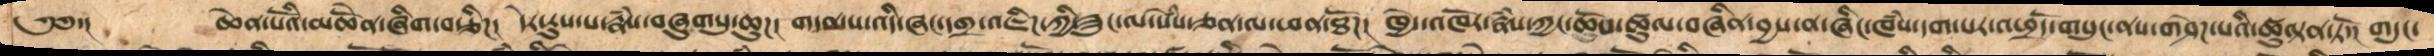༄༅་།      ཆེན་པོའི་མཆོནེ་ཞིག་བརྩིཌ།   དེར་རུས་པ་རྣཾས་བཞུགསུ་ཆུཌ།  གདན་ས་འདི་ཞང་དགྲ་འཇིཌ་ཀྱི་ཟུང་ལ་སེཾས་ཅན་ལ་ཕན་ཐོཌ།  ཁྱེད་འཁོར་རྣཾས་ཀྱང་ཆོས་ཚུལ་བཞིན་བྱས་ན་ཞིང་ཁཾས་དག་པར་འཕྲདོ་གསུང་ནས་གཤེཌ་པའི་ཚུལྟན་ཏོ་།  གདུང་
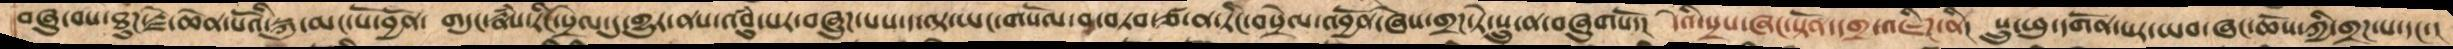བཞུ་བས་ཐུཌ་རྗེ་ཆེན་པོའི་སྐུ་མང་པོ་བྱོན་  གདུང་རྣཾས་རིང་སྲེལ་དུ་གྱུར་ནས་འབུཾ་པར་བཞུཌ་པས་ད་ལྟ་ཡང་གསོལ་བ་བཏབ་ཙ་ན་རིང་བསྲེལ་འབྱོན་ཞེས་གྲཌ་ཏེ་སྲུ་ན་བཞུགསོ་།   དེའི་སྲས་ཞང་སྟོན་དགྲ་འཇིཌ་ནི།  སྲུ་ཕུ་དགོན་པར་ཡབ་ཞང་ཆོས་ཀྱི་གྲཌ་པ་དང་།
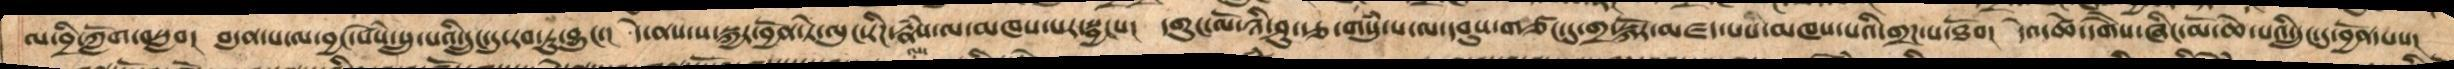ལ་བྲི་ཀློག་བསླབ།  བདུན་པ་ལ་བྱང་སེཾས་སྲུ་པའི་དྲུང་དུ་རབ་ཏུ་བྱུང་།  དེ་ནས་ས་སྐྱར་བྱོན་ཏེ་ལུང་རིཌ་རྣཾས་ལ་མཁས་པར་སྦྱངས།  དགུང་ལོ་ཉི་ཤུ་རྩ་གསུཾ་པ་ལ་དབུས་གཙང་དུ་གྲ་སྐོར་མཛད་པས་མཁས་པའི་གྲཌ་པ་ཐོབ།  དེའ་ཚེ་དགཻས་ཞིང་མོ་ཆེ་པའི་དྲུང་དུ་བྱོན་པས།
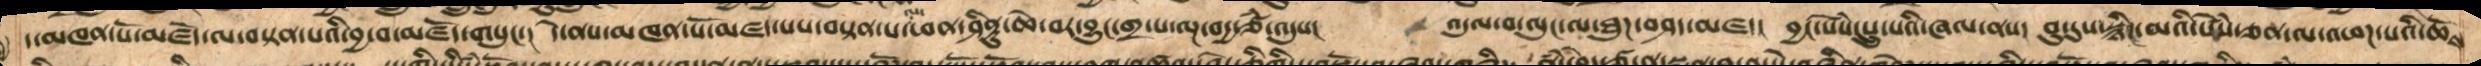ད་མཁན་པོ་མཛོད་ལ་བསྟན་པའི་བྱ་བ་མཛོད་གསུངས། དེ་ནས་མཁན་པོ་མཛད་པས་བསྟན་པ་ལ་ཕན་ཤིནུ་ཆེ་བར་བྱུང་གྲ་པ་ལྔ་བདྱ་ཙཾ་འདུས། འདུལ་བ་ལུང་ལ་ཐུཌ་བཤད་མཛད། བྱང་སེཾས་སྲུ་པའི་ཞལ་ནས། བུ་དུས་སྙིཌ་མའི་སེཾས་ཅན་ལ་འཕཌ་པའི་ཆོས
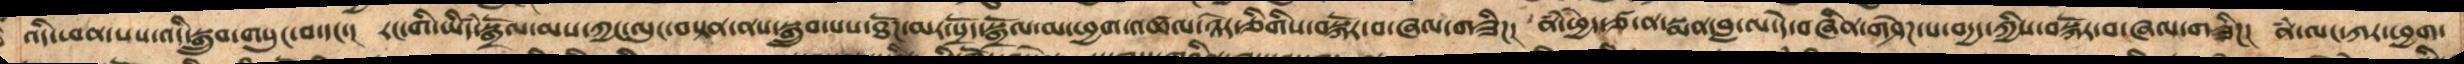འདི་ཕན་པས་འདི་སྒྲུབ་གསུང་བ་དང་།  རང་གི་ཡིདཾ་སྒྲོལ་མས་ཀྱང་ལུང་བསྟན་ནས་སྒྲུབ་པས་ཐོཌ་མར་སྲོད་སྒྲོལ་མ་ཕྱག་འཚལ་ཉེར་ཅིགིས་བསྐོར་བ་ཞལ་གཟིཌ།  ནཾ་ཕྱེད་ཙ་ན་སྨན་བླ་ལ་དེ་བཞིན་གཤེཌ་པ་བདྱད་ཀྱིས་བསྐོར་བ་ཞལ་གཟིཌ།  ནཾ་ལང་ཀར་ཕྱག་
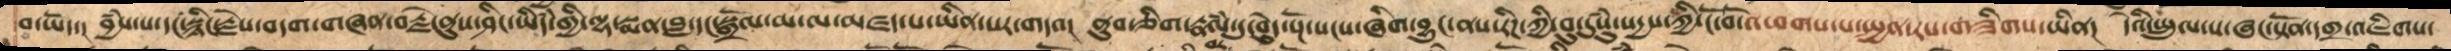བ་ཡོད། བྱཾས་པ་དང་སྙིང་རྗེས་བདག་གཞན་བརྗེ་ནུས་ཤིང་ཡིདཾ་གྱི་ལྷ་སྨན་བླ་དང་སྒྲོལ་མ་ལ་མཛད་པ་ཡིན་པར་གདའ། ནུབ་གཅིག་རྣལཾ་དུ་བེུད་སྔོ་བསང་ཞིག་བྱུང་ནས་རིཌ་ཀྱི་བུ་དུསུཾ་སདྱས་ཀྱི་ངོ་བོ་འཕགས་པ་སྤྱན་རས་གཟིགས་ཡིན། དེའི་སྤྲུལ་པ་ཞང་སྟོན་དགྲ་འཇིགས་
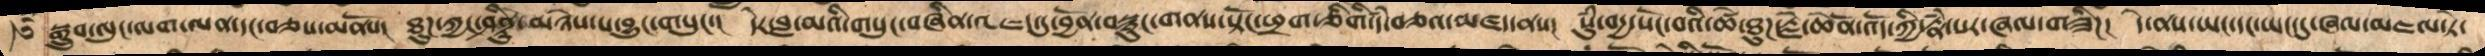སྒྲུབ་ལུང་ལག་ལན་དང་བཅས་མནོས། ཐུཌ་ཀྱང་ཤིནྟུ་མཉེས་པར་བྱུང་གསུང་། དེར་བླ་མའི་གསུང་བཞིན་འཇང་དུ་བྱོན་བསྙུང་གནས་སྟོང་ཕྲག་ཅིགི་དཾ་བཅའ་མཛད་ནས། སུཾ་བདྱ་སོང་བའི་ཚེ་ཐུཌ་རྗེ་ཆེན་པོ་འོད་ཀྱི་རྣཾ་པར་ཞལ་གཟིཌ། དེ་ནས་ཡང་དང་ཡང་དུ་ཞལ་མཇལ་ཏེ་
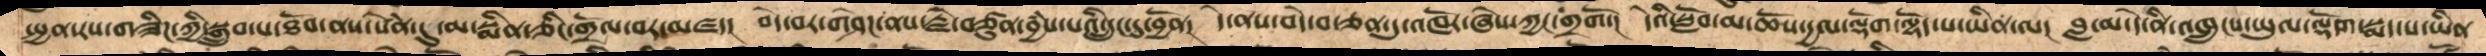སྤྱན་རས་གཟིཌ་ཀྱི་སྒྲུབ་པ་ཐོབ་ནས་སེཾན་དུ་མ་སྨིན་ཅིང་གྲོལ་བར་མཛད།  བདེ་བར་གཤེཌ་ནས་རྗེ་བཙུན་བྱཾས་པའི་དྲུང་དུ་བྱོན།  དེ་ནས་བདེ་བ་ཅན་དུ་འཁོར་ཞེས་ཀྱང་གྲགོ་།  དེའི་སློབ་མ་ཆོས་དྱལ་ལྡོག་ལྷོད་པ་ཡིན་ལ།  བླ་མ་དེ་ནི་འཁྲུངས་ཡུལ་ལྡོག་སྨད་པ་ཡིན
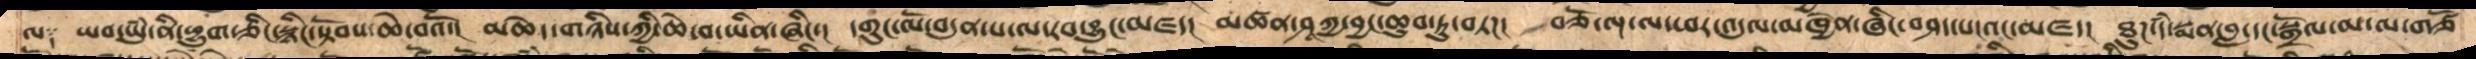ལ༑  ཡབ་ཡུཾ་ནི་ཕྱུག་ཅིང་སྙིང་སྟོབས་ཆེ་བའོ་།  མཆེད་གཉིས་ཀྱི་ཆེ་བཡིན་ཞིང་།  དགུང་ལོ་བདུན་པ་ལ་རབ་བྱུང་མཛད།  མཚན་ཤཱཀྱ་བྱང་ཆུབ་ཏུ་བཏཌ།  བཅོ་ལྔ་ལ་ཕར་འདུལ་མཁྱེན་ཞིང་བཤད་པ་འང་མཛད།  ཐུཌ་དཾ་སྨན་བླ་དང་སྒྲོལ་མ་ལ་གཙོ
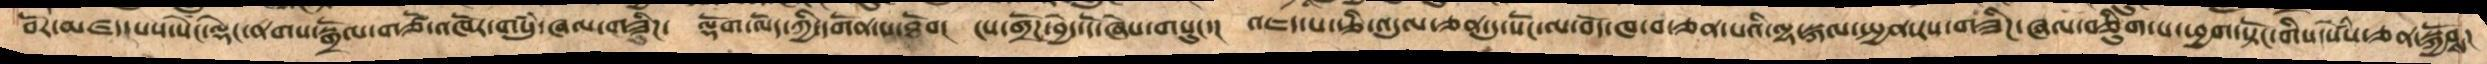བོར་མཛད་པས་སེང་ལྡེང་ནགས་སྒྲོལ་གཙོ་འཁོར་གསུཾ་ཞལ་གཟིཌ། ལྡོག་ལོད་ཀྱི་དགོན་པ་ཐོབ། ངས་གྲོཌ་བྱེད་དོ་ཞེས་གསུང་། འཇད་པ་རྩི་འདུལ་ཅན་དུ་སོང་ལ་བོད་ཁ་བ་ཅན་པའི་ལྷ་སྐལ་སྤྱན་རས་གཟིཌ་ཞལ་བཅིུག་པཕྱག་སྟོང་གིས་སེཾས་ཅན་སྐྱོབས།
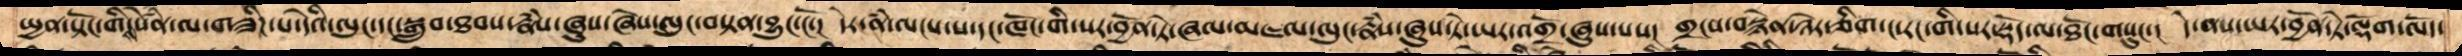སྤྱན་སྟོང་གིས་སེཾན་ལ་གཟིཌ་པ་དེའི་ལུང་དང་སྒྲུབ་ཐབས་རྣཾས་ཞུས་ཞེས་ལུང་བསྟན་བྱུང་ངོ་།  དེར་ནཾ་ལངས་པ་དང་ཁོང་གི་སར་བྱོན་ཏེ་ཞལ་མཇལ་ལུང་རྣཾས་ཞུས་ཏེ་ཡར་འགྲོ་ཞུས་པས། གྲངས་བསྙེན་ཉེར་ཅིག་ང་རང་གི་སར་སྡོད་ལ་ཐོང་གསུང་། དེ་ནས་ཡར་བྱོན་ཏེ་ལྡོག་ལོད་
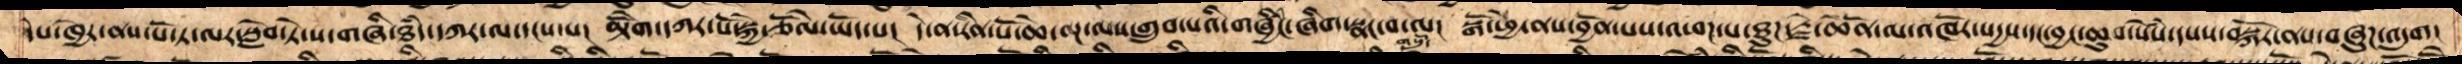དེས་ཁྱེར་ནས་པོ་ཏ་ལར་སླེབ་ཏེ་ས་གཞི་ཐཾད་དཀར་ལ་དངས་པ། མྟེོག་དཀར་པོ་སྐྱོ་ཅོལེ་ཡོད་པ། དེ་ན་རིན་པོ་ཆེ་ལྔ་ལས་གྲུབ་པའི་གཞྱིིང་ཞིག་སྣང་བ་ལ། སྒོ་ཕྱེ་ནས་བྱོན་པས་འཕཌ་པ་ཐུཌ་རྗེ་ཆེན་པོ་ལ་འཁོར་སདྱས་དང་བྱང་ཆུབ་སེཾས་དཔས་བསྐོར་ནས་བཞུཌ་འདུག།
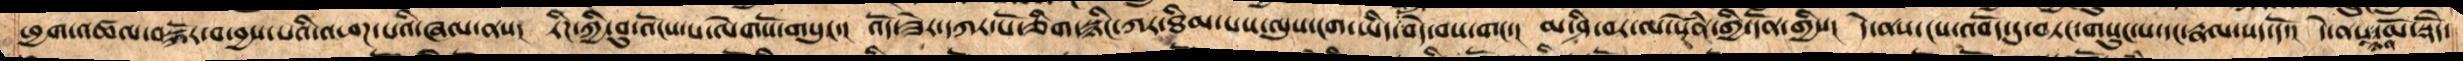ཕྱག་འཚལ་བསྐོར་བ་བྱས་པའི་འཕཌ་པའི་ཞལ་ནས། རིཌ་ཀྱི་བུ་འོངས་པ་ལེགསོ་གསུང་། འོད་ཟེར་དཀར་པོ་ཅིག་སྙིང་ཀར་ཐིམ་པས་ལུས་ངག་ཡིད་གསུཾ་བདེ་བས་གང་། མ་ཤི་བར་ལ་སེཾན་གྱི་དོན་གྱིས། དེ་ནས་ངས་འབོད་དུ་བཏང་གསུང་པདང་རྣལ་སད་དོ་། དེ་ནས་ཉིན་མོ་སྡེོད་
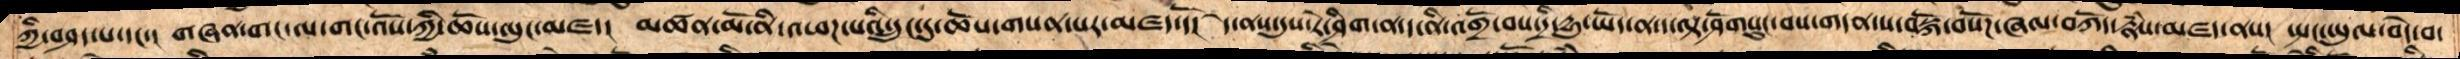ཀྱི་བཤད་པ་དང་།  གཞན་གང་ལ་གང་འོས་ཀྱི་ཆོས་ལུང་མཛད།  མཚན་མོ་ནི་འཕཌ་པའི་དྲུང་དུ་ཆོས་གསན་པར་མཛད་དོ།  དེ་ནས་དུས་རེ་ཤིག་ན་ད་ནི་ང་འགྲོ་བས་དྲི་དྱུ་ཡོད་ན་ད་ལྟ་ཤོགསུང་བས་གདན་ས་བསྐོ་བསོཌ་ཞལ་བཀོད་རྣཾས་མཛད་ནས།  སྤང་ཡུལ་བདེ་བ་
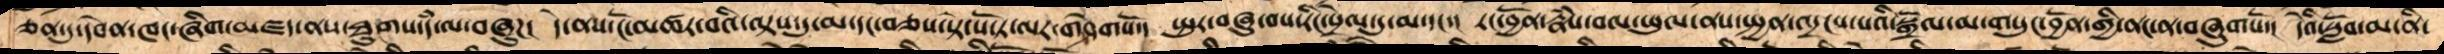ཅན་དུ་དབེན་ཁང་ཞིག་མཛད་ནས་ཐུགས་དཾ་ལ་བཞུཌ།  དེ་ནས་ངོ་མཚར་བའི་ལྟས་དུ་མ་དང་བཅས་སྟེ་པོ་ཏ་ལར་གཤེགསོ།  སྤུར་བཞུ་བས་རིང་སྲེལ་དུ་མ་དང་།  རང་བྱོན་རྣཾས་བལ་ཕུལ་ནས་སྤྱན་འདྲངས་པའི་སྒྲོལ་མ་གསུང་འབྱོན་གྱི་ནང་ན་བཞུགསོ།  དེའི་སློབ་མ་ནི་
